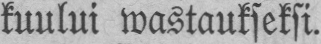kuului wastaukseksi.
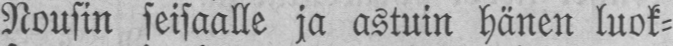Nousin seisaalle ja astuin hänen luok-
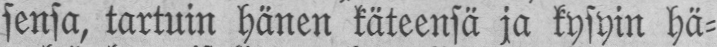sensa, tartuin hänen käteensä ja kysyin hä-
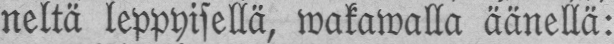neltä leppyisellä, wakawalla äänellä:
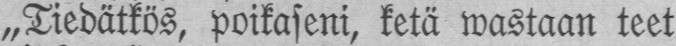„Tiedätkös, poikaseni, ketä wastaan teet
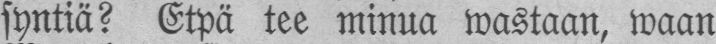syntiä? Etpä tee minua wastaan, waan
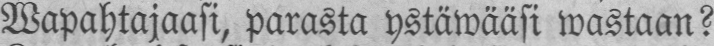Wapahtajaasi, parasta ystäwääsi wastaan?
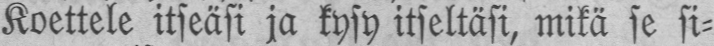Koettele itseäsi ja kysy itseltäsi, mikä se si-
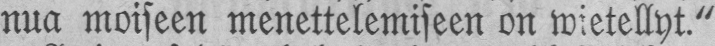nua moiseen menettelemiseen on wietellyt."
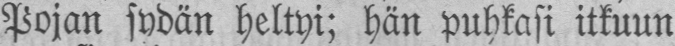Pojan sydän heltyi; hän puhkasi itkuun
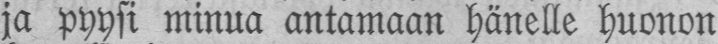ja pyysi minua antamaan hänelle huonon
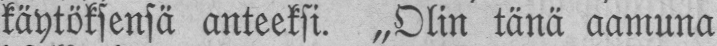käytöksensä anteeksi. „Olin tänä aamuna
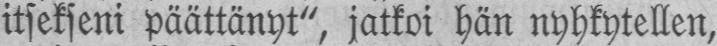itsekseni päättänyt", jatkoi hän nyhkytellen,
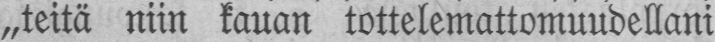„teitä niin kauan tottelemattomuudellani
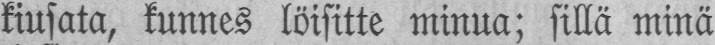kiusata, kunnes löisitte minua; sillä minä
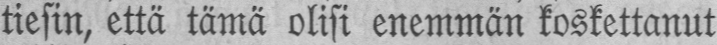tiesin, että tämä olisi enemmän koskettanut
